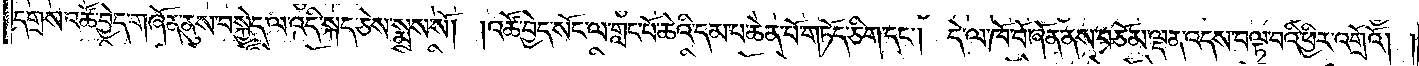དགྲས་འཚོ་བྱེད་གཞོན་ནུས་བསྐྱེད་ལ་འདི་སྐད་ཅེས་སྨྲས་སོ། །འཚོ་བྱེད་སོང་ལ་གླང་པོ་ཆེའི་དམ་པ་ཆེན་པོ་གཏོད་ཅིག་དང༌། དེ་ལ་ཁོ་བོ་ཞོན་ནས་བཅོམ་ལྡན་འདས་བལྟ་བའི་ཕྱིར་འགྲོའོ། །
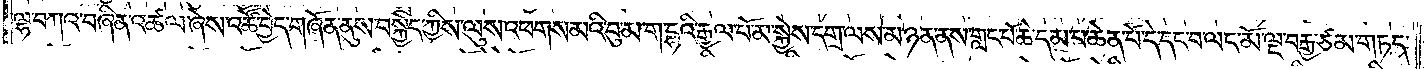ལྷ་བཀའ་བཞིན་འཚལ་ཞེས་འཚོ་བྱེད་གཞོན་ནུས་བསྐྱེད་ཀྱིས་ལུས་འཕགས་མའི་བུ་མ་ག་དྷའི་རྒྱལ་པོ་མ་སྐྱེས་དགྲ་ལས་མཉན་ནས་གླང་པོ་ཆེ་དམ་པ་ཆེན་པོ་དེ་དང་བ་ལང་མོ་ལྔ་བརྒྱ་ཙམ་གཏད་
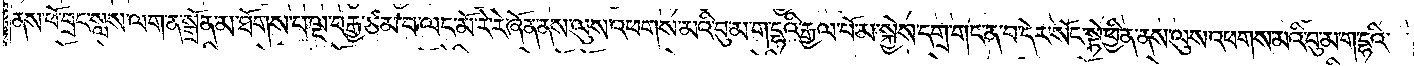ནས་ཕོ་བྲང་སླས་ལག་ན་སྒྲོན་མ་ཐོགས་པ་ལྔ་བརྒྱ་ཙམ་བ་ལང་མོ་རེ་རེ་ཞོན་ནས་ལུས་འཕགས་མའི་བུ་མ་ག་དྷའི་རྒྱལ་པོ་མ་སྐྱེས་དགྲ་གང་ན་བ་དེར་སོང་སྟེ་ཕྱིན་ནས་ལུས་འཕགས་མའི་བུ་མ་ག་དྷའི་
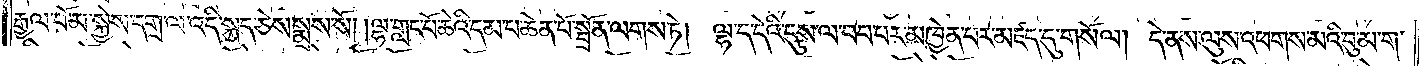རྒྱལ་པོ་མ་སྐྱེས་དགྲ་ལ་འདི་སྐད་ཅེས་སྨྲས་སོ། །ལྷ་གླང་པོ་ཆེའི་དམ་པ་ཆེན་པོ་སྦྲོན་ལགས་ཏེ། ལྷ་ད་དེའི་དུས་ལ་བབ་པར་མཁྱེན་པར་མཛད་དུ་གསོལ། དེ་ནས་ལུས་འཕགས་མའི་བུ་མ་ག་
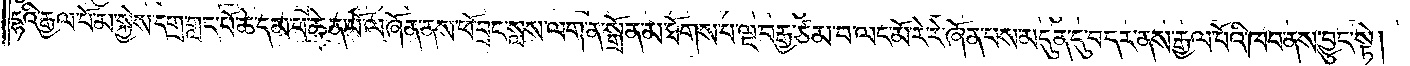དྷའི་རྒྱལ་པོ་མ་སྐྱེས་དགྲ་གླང་པོ་ཆེ་དམ་པ་ཆེན་པོ་ལ་ཞོན་ནས་ཕོ་བྲང་སླས་ལག་ན་སྒྲོན་མ་ཐོགས་པ་ལྔ་བརྒྱ་ཙམ་བ་ལང་མོ་རེ་རེ་ཞོན་པས་མདུན་དུ་བདར་ནས་རྒྱལ་པོའི་ཁབ་ནས་བྱུང་སྟེ།
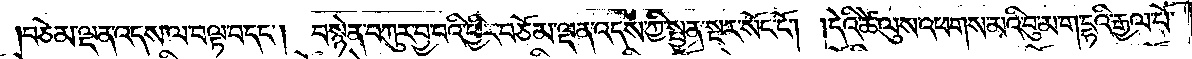བཅོམ་ལྡན་འདས་ལ་བལྟ་བ་དང༌། བསྙེན་བཀུར་བྱ་བའི་ཕྱིར་བཅོམ་ལྡན་འདས་ཀྱི་སྤྱན་སྔར་སོང་ངོ༌། །དེའི་ཚེ་ལུས་འཕགས་མའི་བུ་མ་ག་དྷའི་རྒྱལ་པོ་
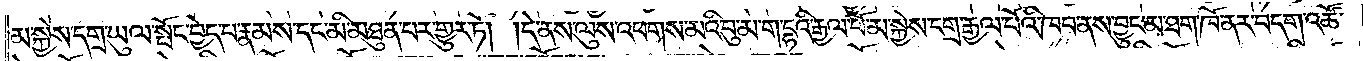མ་སྐྱེས་དགྲ་ཡུལ་སྤོང་བྱེད་པ་རྣམས་དང་མི་མཐུན་པར་གྱུར་ཏེ། །དེ་ནས་ལུས་འཕགས་པའི་བུ་མ་ག་དྷའི་རྒྱལ་པོ་མ་སྐྱེས་དགྲ་རྒྱལ་པོའི་ཁབ་ནས་བྱུང་མ་ཐག་ཁོ་ནར་བདག་འཚོ་
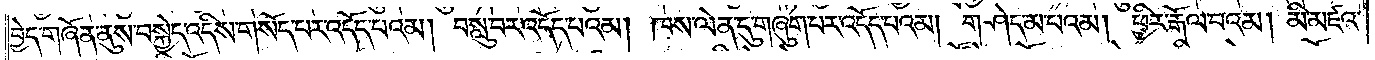བྱེད་གཞོན་ནུས་བསྐྱེད་འདིས་གསོད་པར་འདོད་པའམ། བསླུ་བར་འདོད་པའམ། ཁས་ལེན་དུ་གཞུག་པར་འདོད་པའམ། གཤེད་མ་པའམ། ཕྱིར་རྒོལ་བའམ། མི་མཛའ་
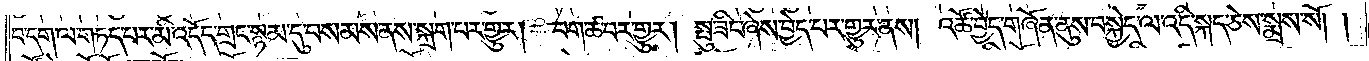བ་དག་ལ་གཏད་པར་མི་འདོད་གྲང་སྙམ་དུ་བསམས་ནས་སྐྲག་པར་གྱུར། བག་ཚ་བར་གྱུར། སྤུ་ཟིང་ཞེས་བྱེད་པར་གྱུར་ནས། འཚོ་བྱེད་གཞོན་ནུས་བསྐྱེད་ལ་འདི་སྐད་ཅེས་སྨྲས་སོ། །
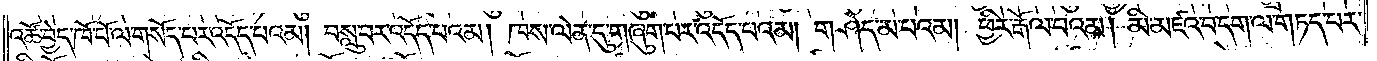འཚོ་བྱེད་ཁོ་བོ་ལ་གསོད་པར་འདོད་པའམ། བསླུ་བར་འདོད་པའམ། ཁས་ལེན་དུ་གཞུག་པར་འདོད་པའམ། གཤེད་མ་པའམ། ཕྱིར་རྒོལ་བའམ། མི་མཛའ་བ་དག་ལ་གཏད་པར་
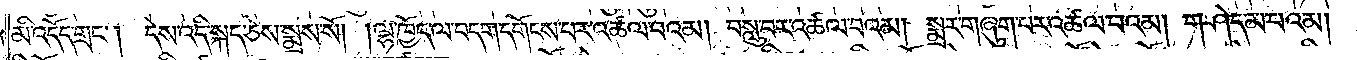མི་འདོད་གྲང༌། དེས་འདི་སྐད་ཅེས་སྨྲས་སོ། །ལྷ་ཁྱོད་ལ་བདག་དགོངས་པར་འཚལ་བའམ། བསླུ་བར་འཚལ་བའམ། སྨྲར་གཞུག་པར་འཚལ་བའམ། གཤེད་མ་པའམ།
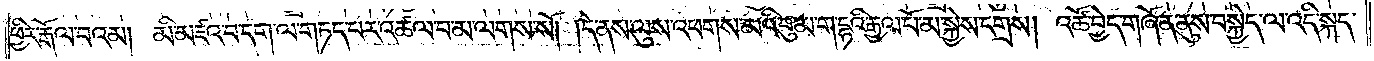ཕྱིར་རྒོལ་བའམ། མི་མཛའ་བ་དག་ལ་གཏད་པར་འཚལ་བ་མ་ལགས་སོ། །དེ་ནས་ལུས་འཕགས་མའི་བུ་མ་ག་དྷའི་རྒྱལ་པོ་མ་སྐྱེས་དགྲས། འཚོ་བྱེད་གཞོན་ནུས་བསྐྱེད་ལ་འདི་སྐད་
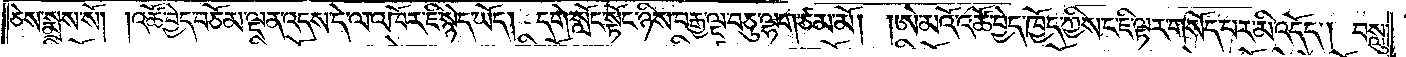ཅེས་སྨྲས་སོ། །འཚོ་བྱེད་བཅོམ་ལྡན་འདས་དེ་ལ་འཁོར་ཇི་སྙེད་ཡོད། དགེ་སློང་སྟོང་ཉིས་བརྒྱ་ལྔ་བཅུ་ལྷག་ཙམ་མོ། །ཨེ་མའོ་འཚོ་བྱེད་ཁྱོད་ཀྱིས་ང་ཇི་ལྟར་གསོད་པར་མི་འདོད། བསླུ་
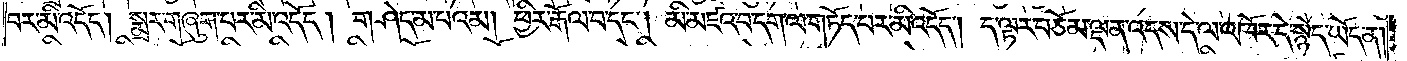བར་མི་འདོད། སྨྲར་གཞུག་པར་མི་འདོད། གཤེད་མ་པའམ། ཕྱིར་རྒོལ་བ་དང༌། མི་མཛའ་བ་དག་ལ་གཏོད་པར་མི་འདོད། ད་ལྟར་བཅོམ་ལྡན་འདས་དེ་ལ་འཁོར་དེ་སྙེད་ཡོད་ན།
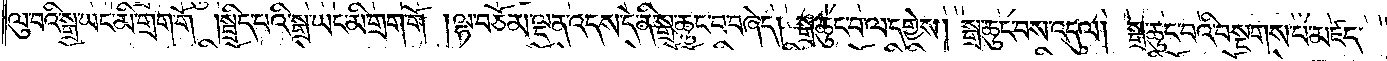ལུ་བའི་སྒྲ་ཡང་མི་གྲག་གོ །སྦྲིད་པའི་སྒྲ་ཡང་མི་གྲག་གོ །ལྷ་བཅོམ་ལྡན་འདས་དེ་ནི་སྒྲ་ཆུང་བ་བཞེད། སྒྲ་ཆུང་བ་ལ་དགྱེས། སྒྲ་ཆུང་བས་འདུལ། སྒྲ་ཆུང་བའི་བསྔགས་པ་མཛད་
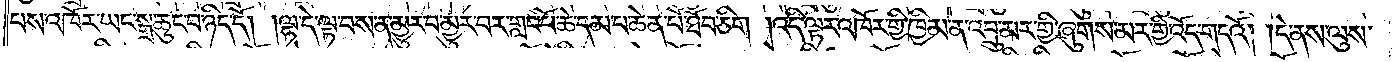པས་འཁོར་ཡང་སྒྲ་ཆུང་བ་ཉིད་དོ། །ལྷ་དེ་ལྟ་བས་ན་མྱུར་བ་མྱུར་བར་གླང་པོ་ཆེ་དམ་པ་ཆེན་པོ་ཐོབ་ཤིག །འདི་ལྟར་འཁོར་གྱི་ཁྱིམ་ན་འབྲུ་མར་གྱི་ཞུགས་མར་གྱི་འོད་གདའོ། །དེ་ནས་ལུས་
